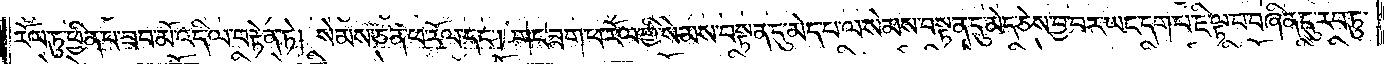རོལ་ཏུ་ཕྱིན་པ་ཟབ་མོ་འདི་ལ་བརྟེན་ཏེ། སེམས་ཅན་ཕ་རོལ་དང༌། གང་ཟག་ཕ་རོལ་གྱི་སེམས་བསྟན་དུ་མེད་པ་ལ་སེམས་བསྟན་དུ་མེད་ཅེས་བྱ་བར་ཡང་དག་པ་ཇི་ལྟ་བ་བཞིན་དུ་རབ་ཏུ་
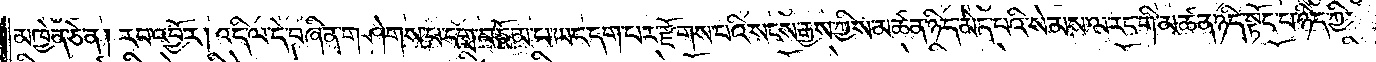མཁྱེན་ཅེ་ན། རབ་འབྱོར། འདི་ལ་དེ་བཞིན་གཤེགས་པ་དགྲ་བཅོམ་པ་ཡང་དག་པར་རྫོགས་པའི་སངས་རྒྱས་ཀྱིས་མཚན་ཉིད་མེད་པའི་སེམས་ལ་རང་གི་མཚན་ཉིད་སྟོང་པ་ཉིད་ཀྱི་
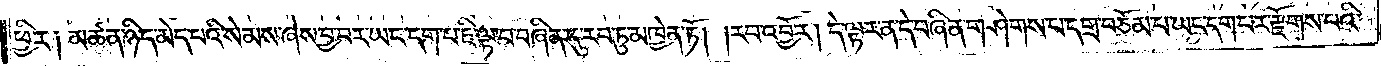ཕྱིར༑ མཚན་ཉིད་མེད་པའི་སེམས་ཞེས་བྱ་བར་ཡང་དག་པ་ཇི་ལྟ་བ་བཞིན་དུ་རབ་ཏུ་མཁྱེན་ཏོ། །རབ་འབྱོར། དེ་ལྟར་ན་དེ་བཞིན་གཤེགས་པ་དགྲ་བཅོམ་པ་ཡང་དག་པར་རྫོགས་པའི་
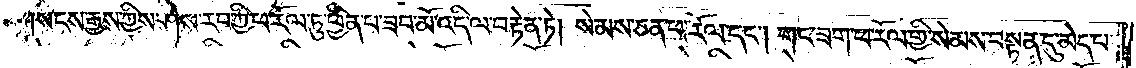སངས་རྒྱས་ཀྱིས་ཤེས་རབ་ཀྱི་ཕ་རོལ་ཏུ་ཕྱིན་པ་ཟབ་མོ་འདི་ལ་བརྟེན་ཏེ། སེམས་ཅན་ཕ་རོལ་དང༌། གང་ཟག་ཕ་རོལ་གྱི་སེམས་བསྟན་དུ་མེད་པ་
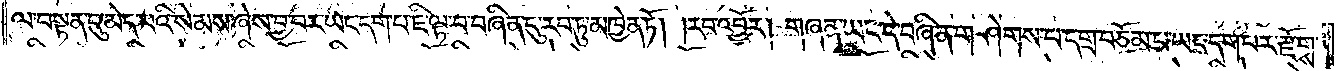ལ་བསྟན་དུ་མེད་པའི་སེམས་ཞེས་བྱ་བར་ཡང་དག་པ་ཇི་ལྟ་བ་བཞིན་དུ་རབ་ཏུ་མཁྱེན་ཏོ། །རབ་འབྱོར། གཞན་ཡང་དེ་བཞིན་གཤེགས་པ་དགྲ་བཅོམ་པ་ཡང་དག་པར་རྫོགས་
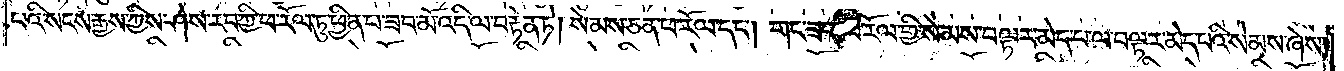པའི་སངས་རྒྱས་ཀྱིས་ཤེས་རབ་ཀྱི་ཕ་རོལ་ཏུ་ཕྱིན་པ་ཟབ་མོ་འདི་ལ་བརྟེན་ཏེ། སེམས་ཅན་ཕ་རོལ་དང༌། གང་ཟག་ཕ་རོལ་གྱི་སེམས་བལྟར་མེད་པ་ལ་བལྟར་མེད་པའི་སེམས་ཞེས་
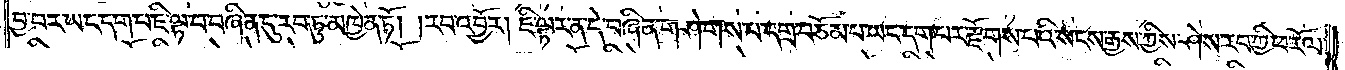བྱ་བར་ཡང་དག་པ་ཇི་ལྟ་བ་བཞིན་དུ་རབ་ཏུ་མཁྱེན་ཏོ། །རབ་འབྱོར། ཇི་ལྟར་ན་དེ་བཞིན་གཤེགས་པ་དགྲ་བཅོམ་པ་ཡང་དག་པར་རྫོགས་པའི་སངས་རྒྱས་ཀྱིས་ཤེས་རབ་ཀྱི་ཕ་རོལ་
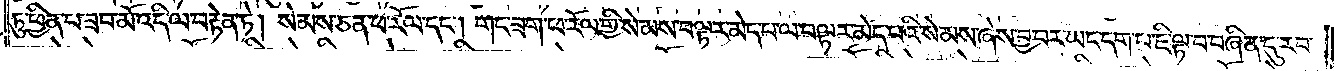ཏུ་ཕྱིན་པ་ཟབ་མོ་འདི་ལ་བརྟེན་ཏེ། སེམས་ཅན་ཕ་རོལ་དང༌། གང་ཟག་ཕ་རོལ་གྱི་སེམས་བལྟར་མེད་པ་ལ་བལྟར་མེད་པའི་སེམས་ཞེས་བྱ་བར་ཡང་དག་པ་ཇི་ལྟ་བ་བཞིན་དུ་རབ་
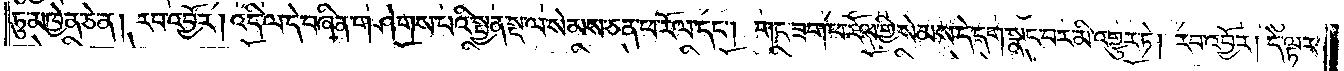ཏུ་མཁྱེན་ཅེ་ན། རབ་འབྱོར། འདི་ལ་དེ་བཞིན་གཤེགས་པའི་སྤྱན་སྔ་ལ་སེམས་ཅན་ཕ་རོལ་དང༌། གང་ཟག་ཕ་རོལ་གྱི་སེམས་དེ་དག་སྣང་བར་མི་འགྱུར་ཏེ། རབ་འབྱོར། དེ་ལྟར་
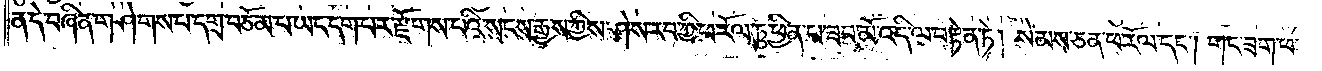ན་དེ་བཞིན་གཤེགས་པ་དགྲ་བཅོམ་པ་ཡང་དག་པར་རྫོགས་པའི་སངས་རྒྱས་ཀྱིས་ཤེས་རབ་ཀྱི་ཕ་རོལ་ཏུ་ཕྱིན་པ་ཟབ་མོ་འདི་ལ་བརྟེན་ཏེ། སེམས་ཅན་ཕ་རོལ་དང༌། གང་ཟག་ཕ་
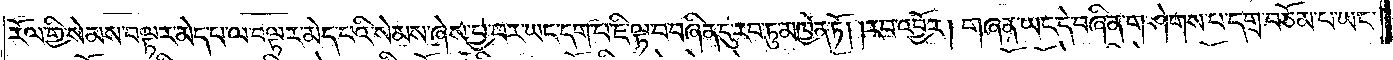རོལ་གྱི་སེམས་བལྟར་མེད་པ་ལ་བལྟར་མེད་པའི་སེམས་ཞེས་བྱ་བར་ཡང་དག་པ་ཇི་ལྟ་བ་བཞིན་དུ་རབ་ཏུ་མཁྱེན་ཏོ། །རབ་འབྱོར། གཞན་ཡང་དེ་བཞིན་གཤེགས་པ་དགྲ་བཅོམ་པ་ཡང་
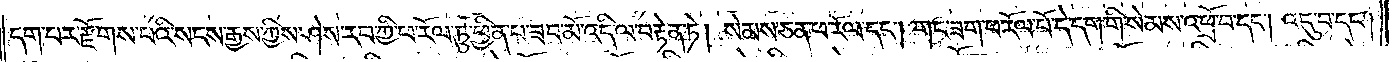དག་པར་རྫོགས་པའི་སངས་རྒྱས་ཀྱིས་ཤེས་རབ་ཀྱི་ཕ་རོལ་ཏུ་ཕྱིན་པ་ཟབ་མོ་འདི་ལ་བརྟེན་ཏེ། སེམས་ཅན་ཕ་རོལ་དང༌། གང་ཟག་ཕ་རོལ་པོ་དེ་དག་གི་སེམས་འཕྲོ་བ་དང༌། འདུ་བ་དང༌།
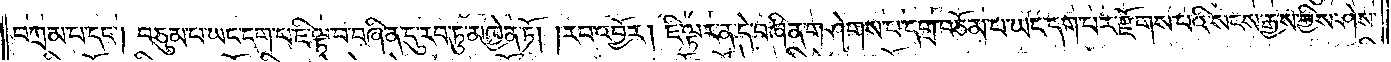བཀྲམ་པ་དང༌། བཅུམ་པ་ཡང་དག་པ་ཇི་ལྟ་བ་བཞིན་དུ་རབ་ཏུ་མཁྱེན་ཏོ། །རབ་འབྱོར། ཇི་ལྟར་ན་དེ་བཞིན་གཤེགས་པ་དགྲ་བཅོམ་པ་ཡང་དག་པར་རྫོགས་པའི་སངས་རྒྱས་ཀྱིས་ཤེས་
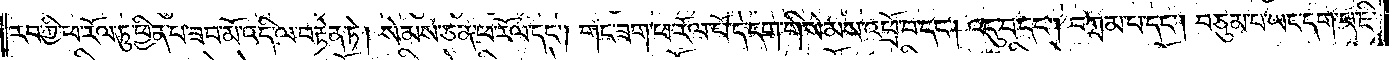རབ་ཀྱི་ཕ་རོལ་ཏུ་ཕྱིན་པ་ཟབ་མོ་འདི་ལ་བརྟེན་ཏེ། སེམས་ཅན་ཕ་རོལ་དང༌། གང་ཟག་ཕ་རོལ་པོ་དེ་དག་གི་སེམས་འཕྲོ་བ་དང༌། འདུ་བ་དང༌། བཀྲམ་པ་དང༌། བཅུམ་པ་ཡང་དག་པ་ཇི་
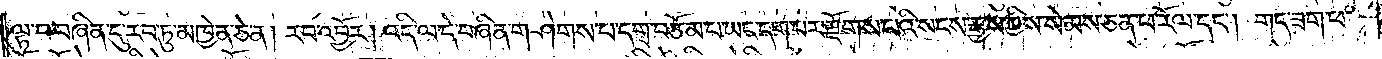ལྟ་བ་བཞིན་དུ་རབ་ཏུ་མཁྱེན་ཅེ་ན། རབ་འབྱོར། འདི་ལ་དེ་བཞིན་གཤེགས་པ་དགྲ་བཅོམ་པ་ཡང་དག་པར་རྫོགས་པའི་སངས་རྒྱས་ཀྱིས་སེམས་ཅན་ཕ་རོལ་དང༌། གང་ཟག་ཕ་
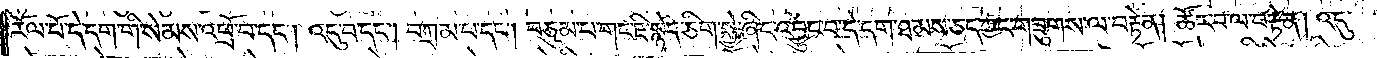རོལ་པོ་དེ་དག་གི་སེམས་འཕྲོ་བ་དང༌། འདུ་བ་དང༌། བཀྲམ་པ་དང༌། བཅུམ་པ་གང་ཇི་སྙེད་ཅིག་སྐྱེ་ཞིང་འབྱུང་བ་དེ་དག་ཐམས་ཅད་ཀྱང་གཟུགས་ལ་བརྟེན། ཚོར་བ་ལ་བརྟེན། འདུ་
